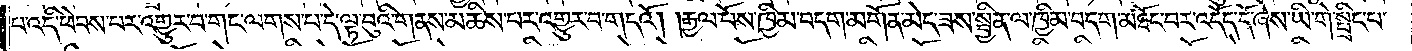པ་འདི་ཕེབས་པར་འགྱུར་བ་གང་ལགས་པ་དེ་ལྟ་བུའི་གནས་མཆིས་པར་འགྱུར་བ་གདའོ། །རྒྱལ་པོས་ཁྱིམ་བདག་མགོན་མེད་ཟས་སྦྱིན་ལ་ཁྱིམ་བདག་མཐོང་བར་འདོད་དོ་ཞེས་ཡི་གེ་སྤྲིང་པ་
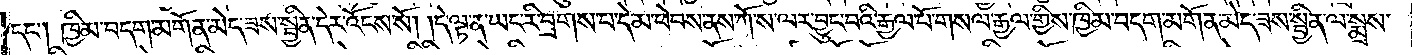དང༌། ཁྱིམ་བདག་མགོན་མེད་ཟས་སྦྱིན་དེར་འོངས་སོ། །དེ་ལྟ་ན་ཡང་རི་བྲགས་པ་དེ་མ་ཕེབས་ནས་ཀོ་ས་ལར་བྱུང་བའི་རྒྱལ་པོ་གསལ་རྒྱལ་གྱིས་ཁྱིམ་བདག་མགོན་མེད་ཟས་སྦྱིན་ལ་སྨྲས་
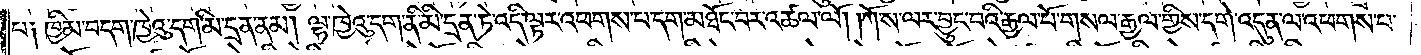པ༑ ཁྱིམ་བདག་ཁྱེའུ་དག་མི་དྲན་ནམ། ལྷ་ཁྱེའུ་དག་ནི་མི་དྲན་ཏེ་འདི་ལྟར་འཕགས་པ་དག་མཐོང་བར་འཚལ་ལོ། །ཀོ་ས་ལར་བྱུང་བའི་རྒྱལ་པོ་གསལ་རྒྱལ་གྱིས་དགེ་འདུན་ལ་འཕགས་པ་
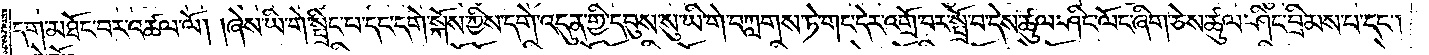དག་མཐོང་བར་འཚལ་ལོ། །ཞེས་ཡི་གེ་སྤྲིང་པ་དང་དགེ་སྐོས་ཀྱིས་དགེ་འདུན་གྱི་དབུས་སུ་ཡི་གེ་བཀླགས་ཏེ་གང་དེར་འགྲོ་བར་སྤྲོ་བ་དེས་ཚུལ་ཤིང་ལོང་ཞིག་ཅེས་ཚུལ་ཤིང་བྲིམས་པ་དང༌།
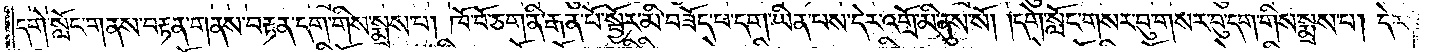དགེ་སློང་གནས་བརྟན་གནས་བརྟན་དག་གིས་སྨྲས་པ། ཁོ་བོ་ཅག་ནི་རྒན་པོ་སྦྱོར་མི་བཟོད་པ་དག་ཡིན་པས་དེར་འགྲོ་མི་ནུས་སོ། །དགེ་སློང་གསར་བུ་གསར་བུ་དག་གིས་སྨྲས་པ། དེར་
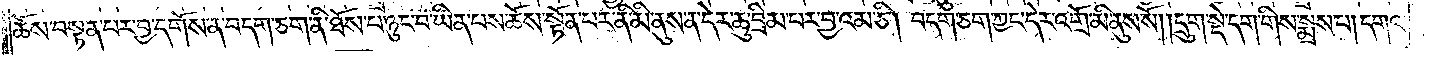ཆོས་བསྟན་པར་བྱ་དགོས་ན་བདག་ཅག་ནི་ཐོས་པ་ཉུང་བ་ཡིན་པས་ཆོས་སྟོན་པར་ནི་མི་ནུས་ན་དེར་ཆུ་བྲིམ་པར་བྱའམ་ཅི། བདག་ཅག་ཀྱང་དེར་འགྲོ་མི་ནུས་སོ། །དྲུག་སྡེ་དག་གིས་སྨྲས་པ། དགའ་
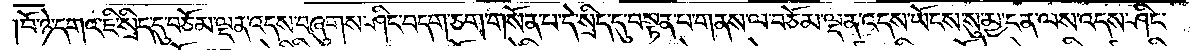བོ་ཉེ་དགའ་ཇི་སྲིད་དུ་བཅོམ་ལྡན་འདས་བཞུགས་ཤིང་བདག་ཅག་གསོན་པ་དེ་སྲིད་དུ་བསྟན་པ་གནས་ལ་བཅོམ་ལྡན་འདས་ཡོངས་སུ་མྱ་ངན་ལས་འདས་ཤིང་
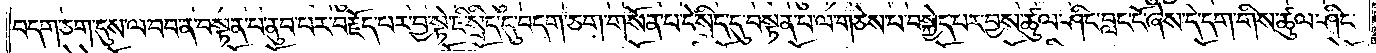བདག་ཅག་དུས་ལ་བབ་ན་བསྟན་པ་ནུབ་པར་བརྗོད་པར་བྱ་སྟེ་ཇི་སྲིད་དུ་བདག་ཅག་གསོན་པ་དེ་སྲིད་དུ་བསྟན་པ་ལ་གཅེས་པ་བསྐྱེད་པར་བྱས་ཚུལ་ཤིང་བླང་ངོ་ཞེས་དེ་དག་གིས་ཚུལ་ཤིང་
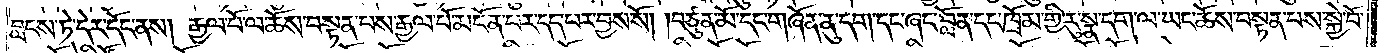བླངས་ཏེ་དེར་དོང་ནས། རྒྱལ་པོ་ལ་ཆོས་བསྟན་པས་རྒྱལ་པོ་མངོན་པར་དད་པར་བྱས་སོ། །བཙུན་མོ་དང་གཞོན་ནུ་དག་དང་ཞང་བློན་དང་ཁྲོམ་གྱི་རུ་སྣ་དག་ལ་ཡང་ཆོས་བསྟན་པས་སྐྱེ་བོ་
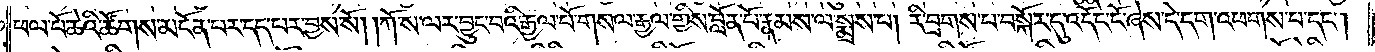ཕལ་པོ་ཆེའི་ཚོགས་མངོན་པར་དད་པར་བྱས་སོ། །ཀོ་ས་ལར་བྱུང་བའི་རྒྱལ་པོ་གསལ་རྒྱལ་གྱིས་བློན་པོ་རྣམས་ལ་སྨྲས་པ། རི་བྲགས་པ་བསྐོར་དུ་འདོང་ངོ་ཞེས་དེ་དག་འཕགས་པ་དང༌།
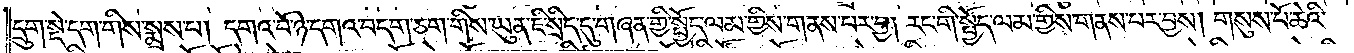དྲུག་སྡེ་དག་གིས་སྨྲས་པ། དགའ་བོ་ཉེ་དགའ་བདག་ཅག་གིས་ཡུན་ཇི་སྲིད་དུ་གཞན་གྱི་སྤྱོད་ལམ་གྱིས་གནས་པར་བྱ། རང་གི་སྤྱོད་ལམ་གྱིས་གནས་པར་བྱས། གསུས་པོ་ཆེའི་
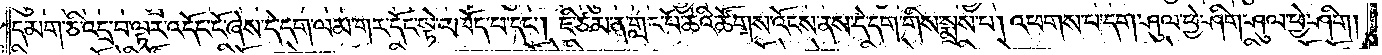དམག་ཅི་འདྲ་བ་ལྟར་འདོང་ངོ་ཞེས་དེ་དག་ལམ་གར་དོང་སྟེ་འཁོད་པ་དང༌། ཇི་ཙམ་ན་གླང་པོ་ཆེའི་ཚོགས་འོངས་ནས་དེ་དག་གིས་སྨྲས་པ། འཕགས་པ་དག་ཤུལ་ཕྱེ་ཤིག་ཤུལ་ཕྱེ་ཤིག།
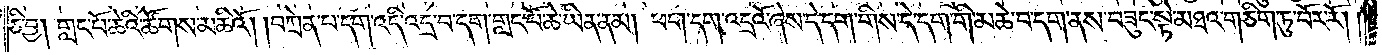ཅི་བྱ། གླང་པོ་ཆེའི་ཚོགས་མཆིའོ། །བཀྲེན་པ་དག་འདི་འདྲ་བ་དག་གླང་པོ་ཆེ་ཡིན་ནམ། ཕག་དག་འདྲའོ་ཞེས་དེ་དག་གིས་དེ་དག་གི་མཆེ་བ་དག་ནས་བཟུང་སྟེ་མཐའ་གཅིག་ཏུ་བོར་རོ། །
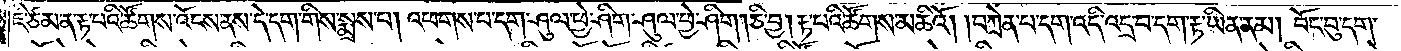ཇི་ཙམ་ན་རྟ་པའི་ཚོགས་འོངས་ནས་དེ་དག་གིས་སྨྲས་པ། འཕགས་པ་དག་ཤུལ་ཕྱེ་ཤིག་ཤུལ་ཕྱེ་ཤིག །ཅི་བྱ། རྟ་པའི་ཚོགས་མཆིའོ། །བཀྲེན་པ་དག་འདི་འདྲ་པ་དག་རྟ་ཡིན་ནམ། བོང་བུ་དག་
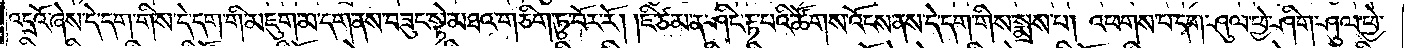འདྲའོ་ཞེས་དེ་དག་གིས་དེ་དག་གི་མཇུག་མ་དག་ནས་བཟུང་སྟེ་མཐའ་གཅིག་ཏུ་བོར་རོ། །ཇི་ཙམ་ན་ཤིང་རྟ་པའི་ཚོགས་འོངས་ནས་དེ་དག་གིས་སྨྲས་པ། འཕགས་པ་དག་ཤུལ་ཕྱེ་ཤིག་ཤུལ་ཕྱེ་
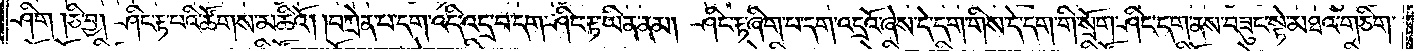ཤིག །ཅི་བྱ། ཤིང་རྟ་པའི་ཚོགས་མཆིའོ། །བཀྲེན་པ་དག་འདི་འདྲ་བ་དག་ཤིང་རྟ་ཡིན་ནམ། ཤིང་རྟ་ཞིག་པ་དག་འདྲའོ་ཞེས་དེ་དག་གིས་དེ་དག་གི་སྲོག་ཤིང་དག་ནས་བཟུང་སྟེ་མཐའ་གཅིག་
